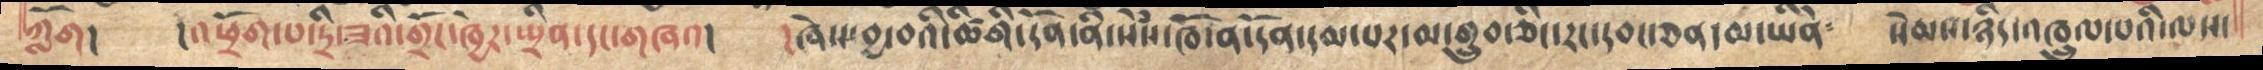ཀློག།     །འཕྲོག་པ་དྲི་ཟའི་གྲོང་ཁྱེར་སྤྲིན་དང་གཞན།    །ཞེས་བྱ་བའི་ཚིགི་དོན་ནི་སེཾས་ཁོ་ན་དོན་དམ་པར་མ་གྲུབ་ཅིང་རང་དབང་ཅན་མ་ཡིནོ༴     སེམས་ཉིད་འཁྲུལ་པའི་ལས་
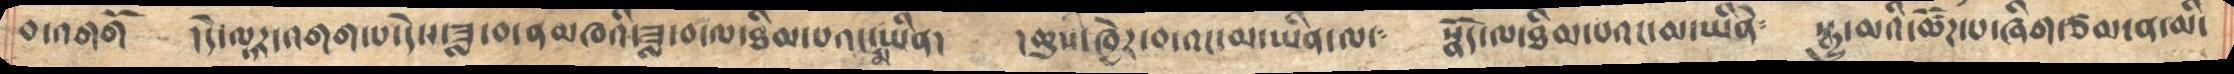བ་འགགོ   །དེ་ལྟར་འགག་པ་དེས་ཟླ་བ་ནམཁའི་ཟླ་བ་ལ་ཐིམ་པའང་མ་ཡིན།  །ཆུས་ཁྱེར་བ་འང་མ་ཡིན་ལ་༴  སྣོད་ལ་ཐིམ་པའངམ་ཡིནེ༴  སྒྱུ་མའི་ཚོཌ་པ་ཞིག་ཙམ་ན་མི་
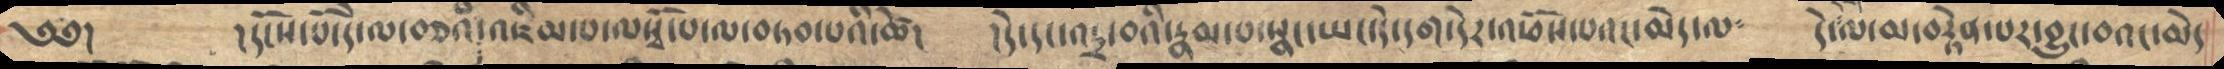༄༅།     །དངོས་པོ་དེ་ལ་བཅའ་འཇིམ་པ་ལསྭོ་པ་ལ་བཏབ་པའི་ཚེ།   །དེ་དང་འདྲ་བའི་རྣམ་པ་སྣང་ཡང་དེ་དག་དེར་འཕོས་པའང་མེད་ལ༴    དེ་ལ་མ་བརྟེན་པར་བྱུང་བའང་མེད
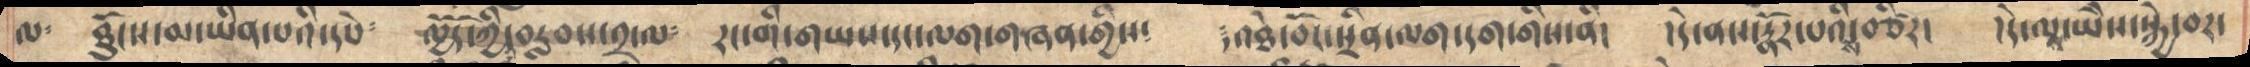ལ༴  ཐོུངས་མ་ཡིན་པའི་དཔེ༴ ཁྱོད་ཀྱི་བརླབས་༢་ལ༴  རང་གི་གཡས་དང་ལག་གཞན་གྱིས༴  ༑འཐེ་བོང་སྲིན་ལག་དག་གིས་ནི།  །དེ་ནས་རྣོར་པའིས་བཙིར། །དེ་ལྟ་ཡཻས་སྐྱེ་བར་
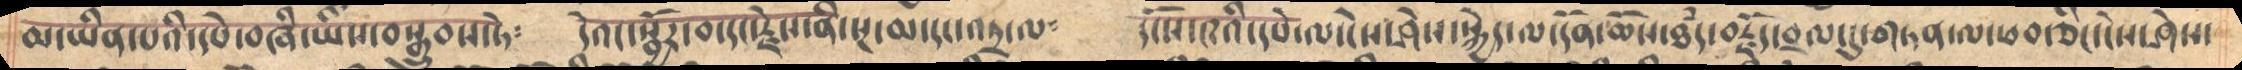མ་ཡིན་པའི་དཔེ་བཞི་ཡིས་བསྒྲུབས་ཏེ༴     དེའང་སྦྱོར་བ་དང་རྗེས་ནི་སྔ་མ་དང་འདྲ་ལ༴    དངོས་༤འི་དཔེ་ལ་ངེས་ཤེས་སྐྱེད་ལ་དོན་ཆོས་ཐཾད་བརྗོད་བྲལ་དུ་གཏན་ལ་ཕབ་ཅིང་ངེས་ཤེས་
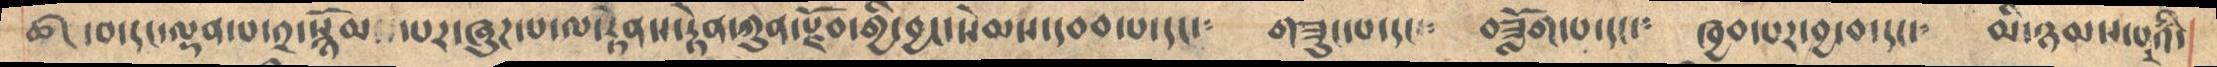ཚང་བ་དང་ལྡན་པ་༢་སྙོམས་པར་ཞུཌ་པ་ལ་རྟེནས་རྟེན་ཀུན་རྫོབ་གྱི་བྱང་སེམས་དབབ་པ་དང་༴    གཟུང་པ་དང་༴    བཟློག་པ་དང་༴    ཁྱབ་པར་བྱ་བ་དང་༴    མི་ཉམས་པའི་
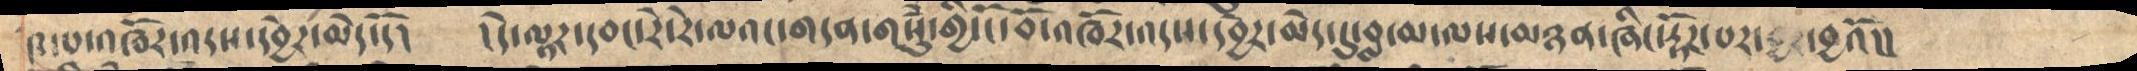༤་པ་འཁོར་འདས་དབྱེར་མེད་དོ།   །དེ་ལྟར་དབང་རེ་རེ་ལའང་གདན་གསུཾ་གྱི་ངོ་བོ་འཁོར་འདས་དབྱེར་མེད་དུ་བླ་མ་ལས་མཉན་ཞིང་རྟོཌ་པར་བྱའོ།།
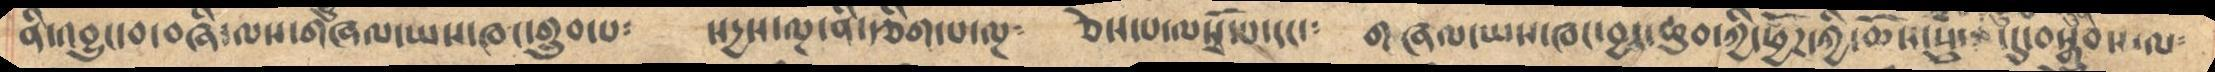ནི་འབྱུང་བ་བཞི་ལས་གཞལ་ཡས་ཁང་གྲུབ་པ༴   སདྱས་ལྔ་ནི་རྩིག་པ་ལྔ༴   ཅེས་པ་ལསྭོ་པ་དང་༴    གཞལ་ཡས་ཁང་བྱང་ཆུབ་ཀྱི་ཕྱོཌ་ཆོས་སུཾ་  ་དུ་བསྒྲུབས་ལ༴
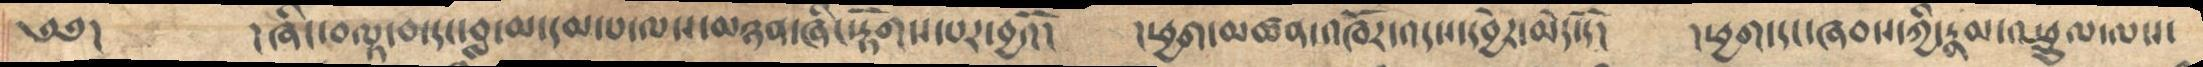༄༅།        །ཞིང་བལྟ་བ་དང་བླ་མ་དམ་པ་ལས་མཉན་ཞིང་རྟོགས་པར་བྱའོ།   །ཕྱག་མཚན་འཁོར་འདས་དབྱེར་མེད་དོ།     །ཕྱག་དང་ཞབས་ཀྱི་རྣམ་འཕྲུལ་ལས་
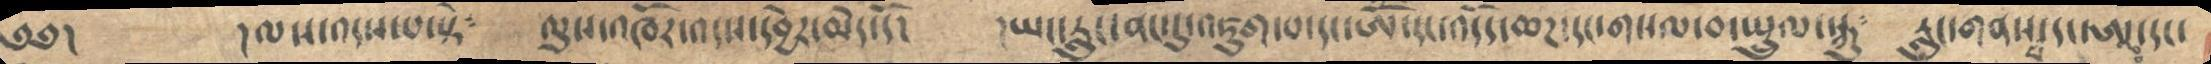༄༅།     །ལས་འདས་པ་སྟེ༴   ལུས་འཁོར་འདས་དབྱེར་མེད་དོ།  ཡང་རླུང་ནང་དུ་འཇུག་པ་དང་ཨོཾ་དང་འདོད་ཆཌ་དང་གསལ་བ་སྤྲུལ་སྐུ༴   རླུང་གནས་པ་དང་ཨཱཿ ་དང་
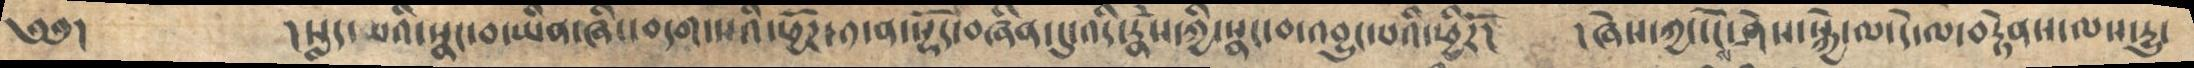༄༅།        །སླད་པའི་སྣང་བ་ཡིན་ཞིང་བདག་པའི་ཕྱོཌ་༡་ན་སྡོད་བཞིན་དུ་འདི་རྣཾས་ཀྱི་སྣང་བ་འབྱུང་པའི་ཕྱིརོ།    །ཞེས་ཀྱང་ངེས་ཤེས་སྐྱེ་ལ་དེ་ལ་བརྟེནས་ལས་དྱུ་
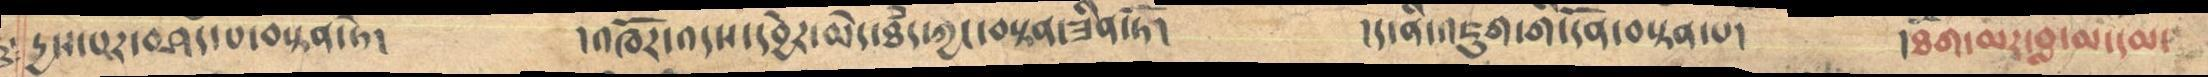དྱས་པར་བཤད་པ་བསྟན་ཏེ།        །འཁོར་འདས་དབྱེར་མེད་ཐཾད་ཀྱང་བསྟན་ཟིན་ཏོ།         །ད་ནི་འཇུག་གི་དོན་བསྟན་པ།    །ཐོག་མར་བླ་མ་དམ་
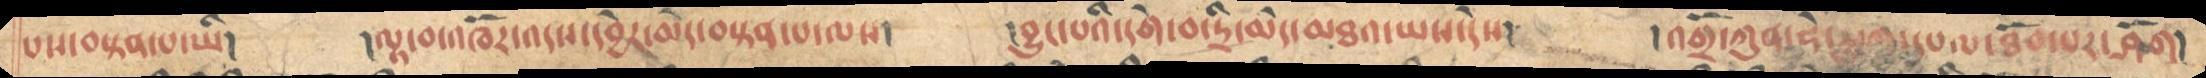པས་བསྟན་པ་ཡི།      །ལྟ་བ་འཁོར་འདས་དབྱེར་མེད་བསྟན་པ་ལས།    །བྱུང་པའི་དགེ་བ་དྲི་མེད་མཐའ་ཡས་དེས།     །འགྲོ་ཀུན་ཧེ་རུ་ཀ་དཔལ་ཐོབ་པར་ཤོག།
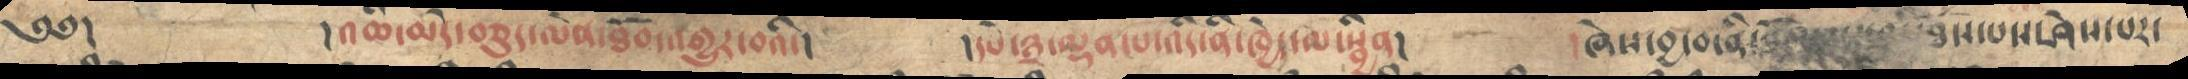༄༅།         ། འཆི་མེད་བཅུད་ཆེན་ཐོབ་འགྱུར་བའི།      །དཔེ་༣་ལྡན་པ་འདི་ནི་ཁྱེད་ལ་སྦྱིན།        །ཞེས་བྱ་བ་ནི་ཐོས་པས་ཤེས་པར་
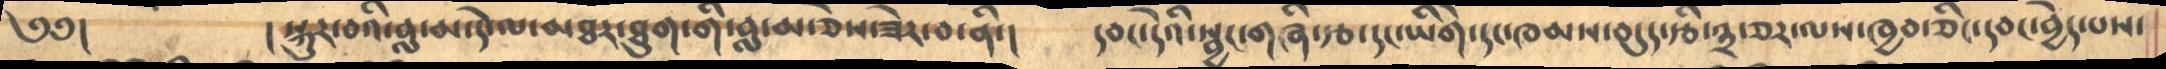༄༅།         །སྐུར་བའི་བླ་མ་དེ་ལ་མཐར་ཐུག་གི་བླ་མ་ཅེས་ཟེར་བ་ནི་།       དབང་དེའི་སྦྱང་གཞི་རྩ་དང་ཡིེག་དང་ཁམས་བདུད་རྩི་༣་ཅར་ལས་ཁྱབ་ཅིང་དབང་བྱེད་པས་
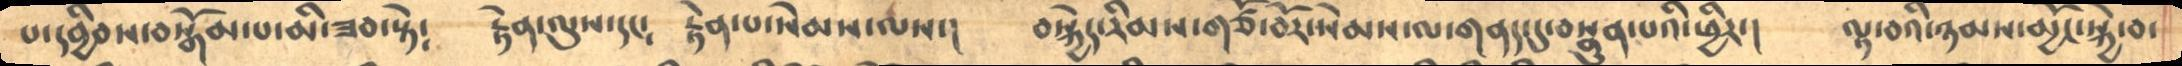པ་དབྱིབས་བསྒོམ་པ་མི་ཟབ་སྟེ༴   རྟེན་ལུས་དང༴   རྟེན་པ་སེམས་ལས་།    བསྐྱེད་རིམས་གཙོ་བོར་སེམས་ལ་གནད་དུ་བསྣུན་པའི་ཕྱིར་།   ལྟ་བའི་ཉམས་མྱོང་སྐྱེ་བ་
